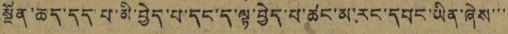སྔོན་ཆད་དད་པ་མི་བྱེད་པ་དང་ད་ལྟ་བྱེད་པ་ཚང་མ་རང་དབང་ཡིན་ཞེས་་་་
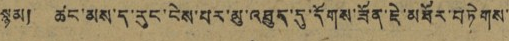སྙམ། ཚང་མས་ད་རུང་ངེས་པར་མུ་འཐུད་དུ་དོགས་ཟོན་ཇེ་མཐོར་བཏེགས་
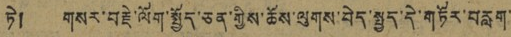ཏེ། གསར་བརྗེ་ལོག་སྤྱོད་ཅན་གྱིས་ཆོས་ལུགས་བྱེད་སྤྱད་དེ་གཏོར་བརླག་
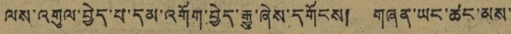ལས་འགུལ་བྱེད་པ་དམ་འགོག་བྱེད་རྒྱུ་ཞེས་དགོངས། གཞན་ཡང་ཚང་མས་
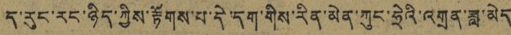ད་རུང་རང་ཉིས་ཀྱིས་རྟོགས་པ་དེ་དག་གིས་རིན་མེན་ཀུང་ཧྲེའི་འགྲན་ཟླ་མེད
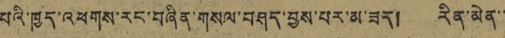པའི་ཁྱད་འཕགས་རང་བཞིན་གསལ་བཤད་བྱས་པར་མ་ཟད། རིན་མེན་་
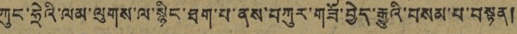ཀུང་ཧྲེའི་ལམ་ལུགས་ལ་སྙིང་ཐག་པ་ནས་བཀུར་གཟོ་བྱེད་རྒྱུའི་བསམ་པ་བསྟན།
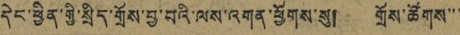དེང་ཕྱིན་གྱི་སྲིད་གྲོས་བྱ་བའི་ལས་འགན་ཕྱོགས་སུ། གྲོས་ཚོགས་་་
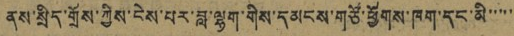ནས་སྲིད་གྲོས་ཀྱིས་ངེས་པར་བླ་ལྷག་གིས་དམངས་གཙོ་ཕྱོགས་ཁག་དང་མི་་་་་
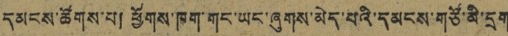དམངས་ཚོགས་པ། ཕྱོགས་ཁག་གང་ཡང་ཞུགས་མེད་པའི་དམངས་གཙོ་མི་དྲག
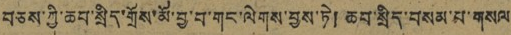བཅས་ཀྱི་ཆབ་སྲིད་གྲོས་མོ་བྱ་བ་གང་ལེགས་བྱས་ཏེ། ཆབ་སྲིད་བསམ་པ་གསལ
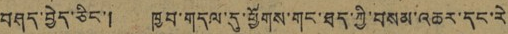བཤད་བྱེད་ཅིང་། ཁྱབ་གདལ་དུ་ཕྱོགས་གང་ཐད་ཀྱི་བསམ་འཆར་དང་རེ
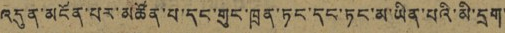འདུན་མངོན་པར་མཚོན་པ་དང་གུང་ཁྲན་ཏང་དང་ཏང་མ་ཡིན་པའི་མི་དྲག་
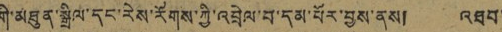གི་མཐུན་སྒྲིལ་དང་རེས་རོགས་ཀྱི་འབྲེལ་བ་དམ་པོར་བྱས་ནས། འཐབ་
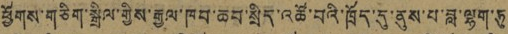ཕྱོགས་གཅིག་སྒྲིལ་གྱིས་རྒྱལ་ཁབ་ཆབ་སྲིད་འཚོ་བའི་ཁྲོད་དུ་ནུས་པ་བླ་ལྷག་ཏུ
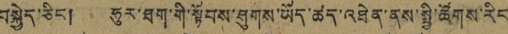བསྐྱེད་ཅིང་། ཧུར་ཐག་གི་སྟོབས་ཤུགས་ཡོད་ཚད་འཐེན་ནས་སྤྱི་ཚོགས་རིང་
